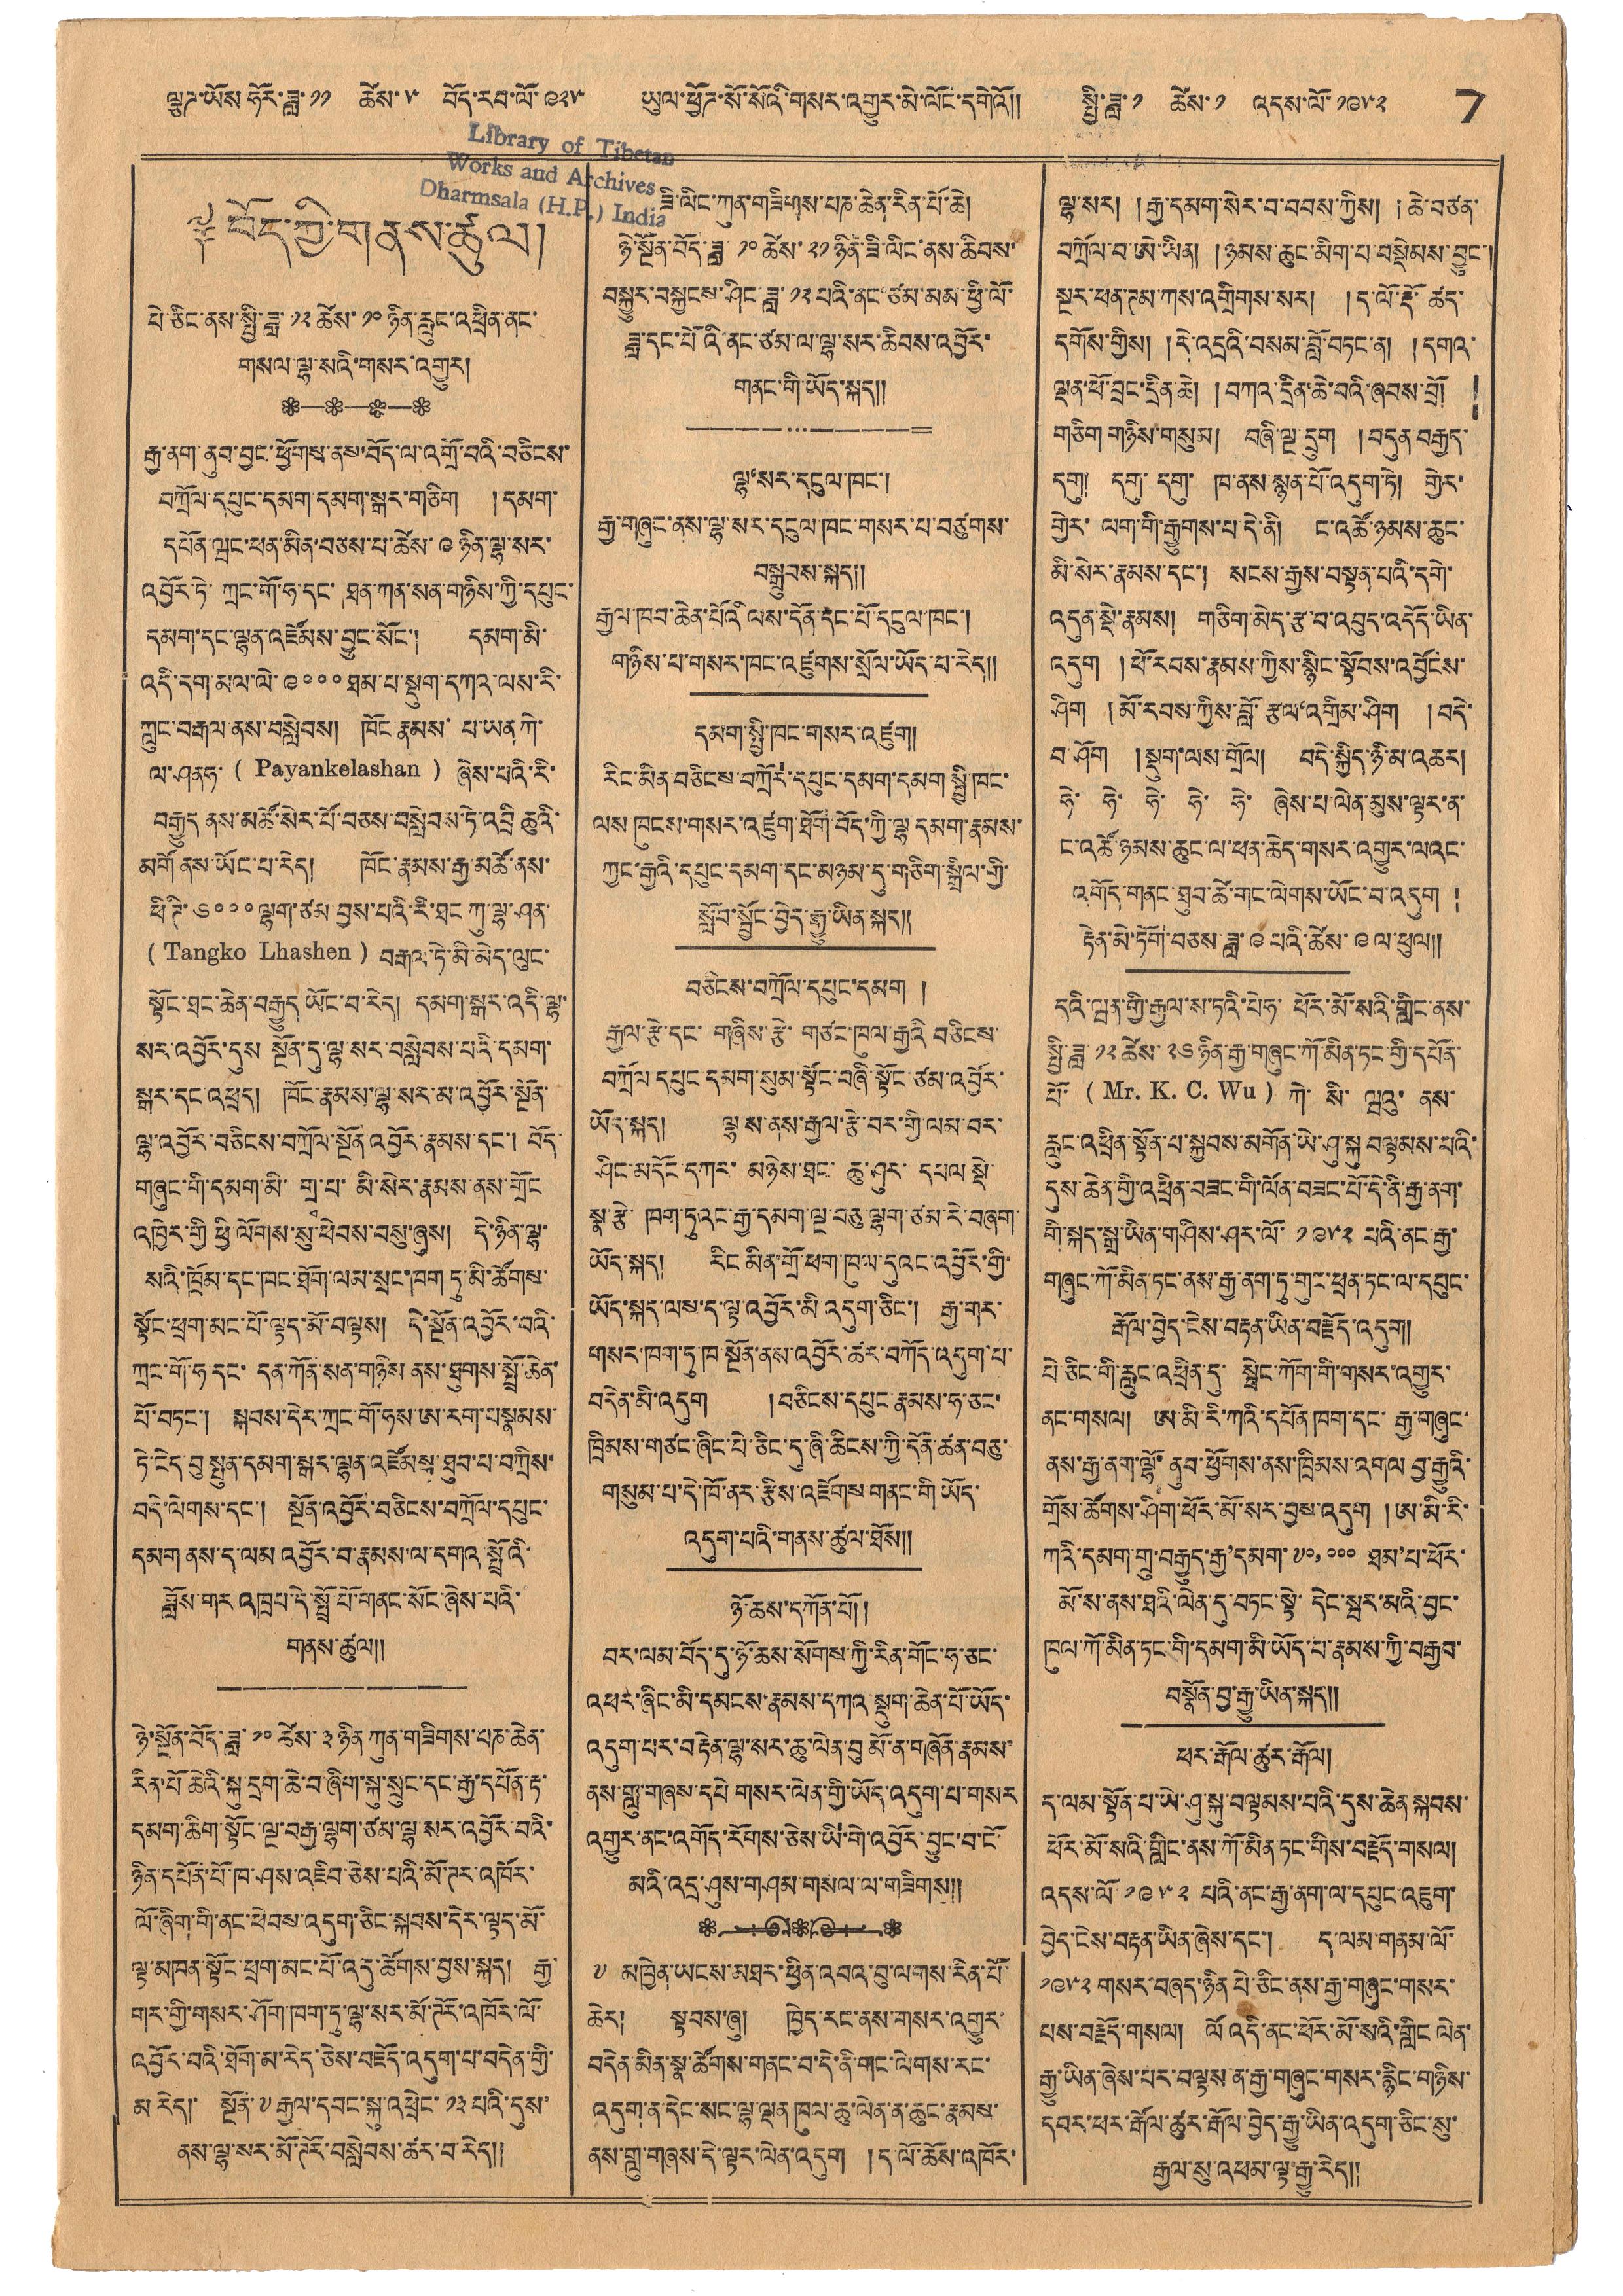ལྕཊ་ཡོས་ཧོར་ཟླ་ ༡༡ ཚེས་ ༥ བོད་རབ་ལོ་ ༩༢༥ ཡུལ་ཕྱོཊ་སོ་སོའི་གསར་འགྱུར་མེ་ལོང་དགེའོ།། སྤྱི་ཟླ་ ༡ ཚེས་ ༡ འདས་ལོ་ ༡༩༥༢ 7
༈ བོད་ཀྱི་གནས་ཚུལ།
པེ་ཅིང་ནས་སྤྱི་ཟླ་ ༡༢ ཚེས་ ༡༠ ཉིན་རླུང་འཕྲིན་ནང་
གསལ་ལྷ་སའི་གསར་འགྱུར།
རྒྱ་ནག་ནུབ་བྱང་ཕྱོགས་ནས་བོད་ལ་འགྲོ་བའི་བཅིངས་
བཀྲོལ་དཔུང་དམག་དམག་སྒར་གཅིག །དམག་
དཔོན་ཝང་ཕན་མིན་བཅས་པ་ཚེས་ ༩ ཉིན་ལྷ་སར
འབྱོར་ཏེ་ ཀྲང་གོ་ཧ་དང་ ཐན་ཀན་སན་གཉིས་ཀྱི་དཔུང་
དམག་དང་ལྷན་འཛོམས་བྱུང་སོང་། དམག་མི་
འདི་དག་མལ་ལེ་ ༩༠༠༠ མ་པ་སྡུག་དཀའ་ལས་རི་
ཀླུང་བརྒལ་ནས་བསླེབས། ཁོང་རྣམས་ པ་ཡན་ཀེ་
ལ་ཤནཧ་ ( Payankelashan ) ཞེས་པའི་རི་
བརྒྱུད་ནས་མཚོ་སེར་པོ་བཅས་བསླེབས་ཏེ་འབྲི་ཆུའི་
མགོ་ནས་ཡོང་པ་རེད། ཁོང་རྣམས་རྒྱ་མཚོ་ནས་
ཕི་ཊི་ ༧༠༠༠ ལྷག་ཙམ་བྱས་པའི་རི་ཐང་ཀུ་ལྷ་ཤན་
( Tangko Lhashen ) བརྒལ་ཏེ་མི་མེད་ལུང་
སྟོང་ཐང་ཆེན་བརྒྱུད་ཡོང་བ་རེད། དམག་སྒར་འདི་ལྷ་
སར་འབྱོར་དུས་ སྔོན་དུ་ལྷ་སར་བསླེབས་པའི་དམག་
སྒར་དང་འཕྲད། ཁོང་རྣམས་ལྷ་སར་མ་འབྱོར་སྔོན་
ལྷ་འབྱོར་བཅིངས་བཀྲོལ་སྔོན་ འབྱོར་རྣམས་དང་། བོད་
གཞུང་གི་དམག་མི་ གྲྭ་པ་ མི་སེར་རྣམས་ནས་གྲོང་
འཁྱེར་གྱི ཕྱི་ལོགས་སུ་ཕེབས་བསུ་ཞུས། དེ་ཉིད་ལྷ་
སའི་ཁྲོམ་དང་ཁང་ཐོག་ལམ་སྲང་ཁག་ཏུ་མི་ཚོགས་
སྟོང་ཕྲག་མང་པོ་ལྟད་མོ་བལྟས། དེ་སྔོན་འབྱོར་བའི་
ཀྲང་གོ་ཧ་དང་ དན་ཀོན་སན་གཉིས་ནས་ཐུགས་སྤྲོ་ཆེན་
པོ་གཏང་། སྐབས་དེར་ཀྲང་གོ་ཧས་ཨ་རག་པསྣམས་
ཏེ་ངེད་བུ སྤུན་དམག་སྒར་ལྷན་འཛོམས་ཐུབ་པ་བཀྲིས་
བདེ་ལེགས་དང་། སྔོན་འབྱོར་བཅིངས་བཀྲོལ་དཔུང་
དམག་ནས་ད་ལམ་འབྱོར་བ་རྣམས་ལ་དགའ་སྤྲོའི་
ཟློས་གར འཁྲཔ་དེ་སྤྲོ་པོ་གནང་སོང་ཞེས་པའི་
གནས་ཚུལ།།
ཉེ་སྔོན་བོད་ཟླ་ ༡༠ ཚེས་ ༣ ཉིན་ཀུན་གཟིགས་པཎ་ཆེན་
རིན་པོ ཆེའི་སྐུ་དྲག་ཆེ་བ་ཞིག་སྐུ་སྲུང་དང་རྒྱ་དཔོན་རྟ་
དམག་ཆིག་སྟོང་ལྔ་བརྒྱ་ལྷག་ཙམ་ལྷ་སར་འབྱོར་བའི་
ཉིན་དཔོན་པོ་ཁ་ཤས་འཇིབ་ཅེས་པའི་མོ་ཊར་འཁོར་
ལོ་ཞིག་གི་ནང་ཕེབས་འདུག་ཅིང་སྐབས་དེར་ལྟད་མོ་
ལྟ་མཁན་སྟོང་ཕྲག་མང་པོ་འདུ་ཚོགས་བྱས་སྐད། རྒྱ་
གར་གྱི་གསར་ཤོག་ཁག་ཏུ་ལྷ་སར་མོ་ཊོར་འཁོར་ལོ་
འབྱོར་བའི་ཐོག་མ་རེད་ཅེས་བཇོད་འདུག་པ་བདེན་གྱི་
མ་རེད། སྔོན་༸རྒྱལ་དབང་སྐུ་འཕྲེང་༡༣ པའི་དུས་
ནས་ལྷ་སར་མོ་ཊོར་བསླེབས་ཚར་བ་རེད།།
ཟི་ལིང་ཀུན་གཟིགས་པཎ་ཆེན་རིན་པོ་ཆེ།
ཉི་སྔོན་བོད་ཟླ་ ༡༠ ཚེས་ ༢༡ ཉིན་ཟི་ལིང་ནས་ཆིབས་
བསྐྱུར་བསྐྱངས་ཤིང་ཟླ་ ༡༢ པའི་ནང་མམ་ཕྱི་ལོ་
ཟླ་དང་པོའི་ནང་ཙམ་ལ་ལྷ་སར་ཆིབས་འབྱོར་
གནང་གི་ཡོད་སྐད།།
ལྷ'སར་དངུལ་ཁང་།
རྒྱ་གཞུང་ནས་ལྷ་སར་དངུལ་ཁང་གསར་པ་བཙུགས་
བསྒྲུབས་སྐད།།
རྒྱལ་ཁབ་ཆེན་པོའི་ལས་དོན་དང་པོ་དངུལ་ཁང་།
གཉིས་པ་གསར་ཁང་འཛུགས་སྲོལ་ཡོད་པ་རེད།།
དམག་སྤྱི་ཁང་གསར་འཛུག།
རིང་མིན་བཅིངས་བཀྲོལ་དཔུང་དམག་དམག སྤྱི་ཁང་
ལས ཁུངས་གསར་འཛུག་ཐོག་བོད་ཀྱི་ལྷ་དམག་རྣམས་
ཀྱང་རྒྱའི་དཔུང་དམག་དང་མཉམ་དུ་གཅིག་སྒྲིལ་གྱི་
སློབ་སྦྱོང་བྱེད་རྒྱུ་ཡིན་སྐད།།
བཅིངས་བཀྲོལ་དཔུང་དམག །
རྒྱལ་རྩེ་དང་ གཞིས་རྩེ་ གཙང་ཁུལ་རྒྱའི་བཅིངས་
བཀྲོལ དཔུང་དམག་སུམ་སྟོང་བཞི་སྟོང་ཙམ་འབྱོར་
ཡོད་སྐད། ལྷ ས་ནས་རྒྱལ་རྩེ་བར་གྱི་ལམ་བར་
ཤིང་མདོང་དཀར་ མཉེས་ཐང་ ཆུ་ཤུར་ དཔལ སྡེ་
སྣ་རྩེ་ ཁག་ཏུའང་རྒྱ་དམག་ལྔ་བཅུ་ལྷག་ཙམ་རེ་བཞག་
ཡོད་སྐད། རིང་མིན་གྲོ་ཕན་ཁུལ་དུའང་འབྱོར་གྱི་
ཡོད་སྐད་ལས་ད་ལྟ་འབྱོར་མི་འདུག་ཅིང་། རྒྱ་གར་
གསར་ཁག་ཏུ་ཁ་སྔོན་ནས་འབྱོར་ཚར་བཀོད་འདུག་པ་
བདེན་མི་འདུག །བཅིངས་དཔུང་རྣམས་ཧ་ཅང་
ཁྲིམས་གཙང་ཞིང་པེ་ཅིང་དུ་ཞི་ཆིངས་ཀྱི་དོན་ཚན་བཅུ་
གསུམ་པ་དེ་ཁོ་ནང་རྩིས་འཇོགས་གནང་གི་ཡོད་
འདུག་པའི་གནས་ཚུལ་ཐོས།།
ཉོ་ཆས་དཀོན་པོ།།
བར་ལམ་བོད་དུ་ཉོ་ཆས་སོགས་ཀྱི་རིན་གོང་ཧ་ཅང་
འཕར་ཞིང་མི་དམངས་རྣམས་དཀའ་སྡུག་ཆེན་པོ་ཡོད་
འདུག་པར་བརྟེན་ལྷ་སར་ཆུ་ལེན་བུ་མོ་ན་གཞོན་རྣམས་
ནས་གླུ་གཞས་དཔེ་གསར་ལེན་གྱི་ཡོད་འདུག་པ་གསར་
འགྱུར་ནང་འགོད་རོགས་ཅེས་ཡི་གེ་འབྱོར་བྱུང་བ་ངོ་
མའི་འདྲ་ཤུས་གཤམ་གསལ་ལ་གཟིགས།།
༸ མཁྱེན་ཡངས་མཐར་ཕྱིན་འབའ་བུ་ལགས་རིན་པོ་
ཆེར། སྟབས་ཞུ། ཁྱེད་རང་ནས་གསར་འགྱུར་
བདེན་མིན་སྣ་ཚོགས་གནང་བ་དེ་ནི་གང་ལེགས་རང་
འདུག་ན་དེང་སང་ལྷ་ལྡན་ཁུལ་ཆུ་ལེན་ན་ཆུང་རྣམས་
ནས་གླུ་གཞས་དེ་ལྟར་ལེན་འདུག །ད་ལོ་ཆོས་འཁོར་
ལྷ་སར། །རྒྱ་དམག་སེར་བ་བབས་ཀྱིས། །ཆེ་བཙན་
བཀྲོལ་བ་ཨེ་ཡིན། །ཉམས་ཆུང་མིག་པ་བསྡེམས་བྱུང་།
སྔར་ཕན་ཊམ་ཀས་འགྲིགས་སར། །ད་ལོ་རྡོ་ ཚད་
དགོས་གྱིས། །དེ་འདྲའི་བསམ་བློ་བཏང་ན། །དགའ་
ལྡན་ཕོ་བྲང་དྲིན་ཆེ། །བཀའ་དྲིན་ཆེ་བའི་ཞབས་བྲོ།
གཅིག གཉིས་གསུམ། བཞི་ལྔ་དྲུག །བདུན་བརྒྱད་
དགུ། དགུ་དགུ་ ཁ་ནས་སྙན་པོ་འདུག་ཏེ། གྱེར་
གྱེར་ ལག་གི་རྒྱུགས་པ་དེ་ནི། ང་འཚོ་ཉམས་ཆུང་
མི་སེར་རྣམས་དང་། སངས་རྒྱས་བསྟན་པའི་དགེ་
འདུན་སྡེ་རྣམས། གཅིག་མེད་རྩ་བ་འབུད་འདོད་ཡིན་
འདུག །ཕོ་རབས་རྣམས་ཀྱིས་སྙིང་སྟོབས་འབྱོངས་
ཤིག །མོ་རབས་ཀྱིས་བློ་རྩལ་འགྲིམ་ཤིག །བདེ་
བ་ཤོག །སྡུག་ལས་གྲོལ། བདེ་སྐྱིད་ཉི་མ་འཆར།
ཧེ་ ཧེ་ ཧེ་ ཧེ་ ཧེ་ ཞེས་པ་ལེན་མུས་ལྟར་ན་
ང་འཚོ་ཉམས་ཆུང་ལ་ཕན་ཆེད་གསར་འགྱུར་ལའང་
འགོད་གནང་ཐུབ་ཚེ་གང་ལེགས་ཡོང་བ་འདུག །
རྟེན་མེ་ཏོག་བཅས་ཟླ་ ༩ པའི་ཚེས་ ༩ ལ་ཕུལ།།
དེའི་ཝན་གྱི་རྒྱལ་ས་ཏའི་པེཧ་ ཕོར་མོ་སའི་གླིང་ནས་
སྤྱི་ཟླ་ ༡༢ ཚེས་ ༢༦ ཉིན་རྒྱ་གཞུང་ཀོ་མིན་ཏང་གྱི་དཔོན་
པོ་ (Mr. K. C. Wu ) ཀེ་ སི་ ཝའུ་ ནས་
རླུང་འཕྲིན་སྟོན་པ་སྐྱབས་མགོན་ཡེ་ཤུ་སྐུ་བལྟམས་པའི་
དུས་ཆེན་གྱི་འཕྲིན་བཟང་གི་ལོན་བཟང་པོ་དེ་ནི་རྒྱ་ནག་
གི་སྐད་སྒྲ་ཡིན་གཤིས་ཤར་ལོ་ ༡༩༥༢ པའི་ནང་རྒྱ་
གཞུང་ཀོ་མིན་ཏང་ནས་རྒྱ་ནག་ཏུ་གུང་ཕྲན་ཏང་ལ་དཔུང་
རྒོད་བྱེད་ངེས་བརྟན་ཡིན་བརྗོད་འདུག།
པེ་ཅིང་གི་རླུང་འཕྲིན་དུ་ སྦེང་ཀོག་གི་གསར་འགྱུར་
ནང་གསལ། ཨ་མི་རི་ཀའི་དཔོན་ཁག་དང་ རྒྱ་གཞུང་
ནས་རྒྱ་ནག་ལྷོ་ ནུབ་ཕྱོགས་ནས་ཁྲིམས་འགལ བྱ་རྒྱུའི་
གྲོས་ཚོགས་ཤིག་ཕོར་མོ་སར་བྱས་འདུག །ཨ་མི་རི་
ཀའི་དམག་གྲུ་བརྒྱུད་རྒྱ'དམག་ ༧༠,༠༠༠ ཐམ'པ་ཕོར་
མོ་ས་ནས་ཐའི་ལེན་དུ་བཏང་སྟེ་ དེང་སྦར་མའི་བྱང་
ཁུལ་ཀོ་མིན་ཏང་གི་དམག་མི་ཡོད་པ་རྣམས་ཀྱི་བརྒྱབ་
བསྣོན་བྱ་རྒྱུ་ཡིན་སྐད།།
ཕར་རྒོལ་ཚུར་རྒོལ།
ད་ལམ་སྟོན་པ་ཡེ་ཤུ་སྐུ་བལྟམས་པའི་དུས་ཆེན་སྐབས་
ཕོར་མོ་སའི་གླིང་ནས་ཀོ་མིན་ཏང་གིས་བརྗོད་གསལ།
འདས་ལོ་ ༡༩༥༢ པའི་ནང་རྒྱ་ནག་ལ་དཔུང་འཇུག་
བྱེད་ངེས་བརྟན་ཡིན་ཞེས་དང་། ད་ལམ་གནམ་ལོ་
༡༩༥༢ གསར་བཞད་ཉིན་པེ་ཅིང་ནས་རྒྱ་གཞུང་གསར་
པས་བརྗོད་གསལ། ལོ་འདི་ནང་ཕོར་མོ་སའི་གླིང་ལེན་
རྒྱུ་ཡིན་ཞེས་པར་བལྟས་ན་རྒྱ་གཞུང་གསར་རྙིང་གཉིས་
དབར་ཕར་རྒོལ་ཚུར་རྒོལ་བྱེད་རྒྱུ་ཡིན་འདུག་ཅིང་སུ་
རྒྱལ་སུ་འཕམ་ལྟ་རྒྱུ་རེད།།
